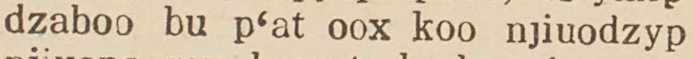dzaboo bu p'at oox koo njiuodzyp
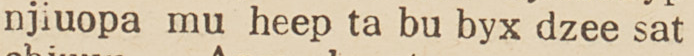njiuopa mu heep ta bu byx dzee sat
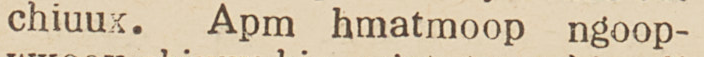chiuux. Apm hmatmoop ngoop-
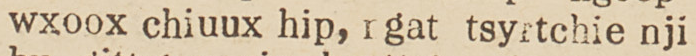wxoox chiuux hip, ngat tsyrtchie nji
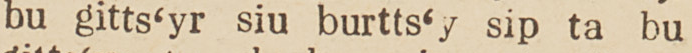bu gitts'yr siu burtts'y sip ta bu
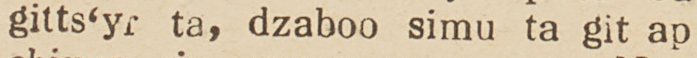gitts'yr ta, dzaboo simu ta git ap
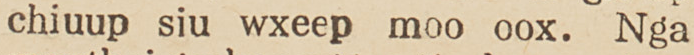chiuup siu wxeep moo oox. Nga
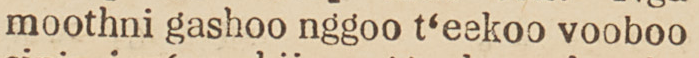moothni gashoo nggoo t'eekoo vooboo
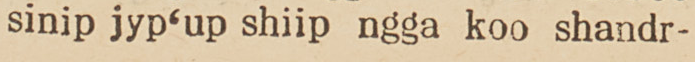sinip jyp'up shiip ngga koo shandr-
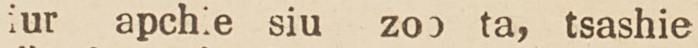iur apchie siu zoo ta, tsashie
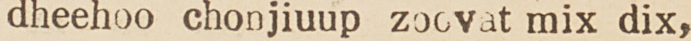dheehoo chonjiuup zoovat mix dix,
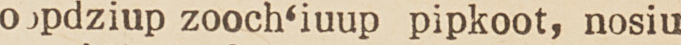oopdziup zooch'iuup pipkoot, nosiu
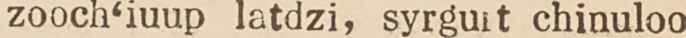zooch'iuup latdzi, syrgut chinuloo
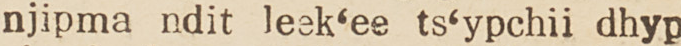njipma ndit leek'ee ts'ypchii dhyp
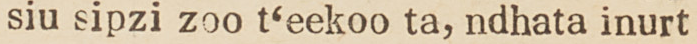siu sipzi zoo t'eekoo ta, ndhata inurt
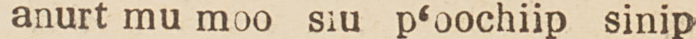anurt mu moo siu p'oochiip sinip
